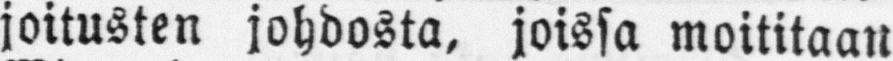joitusten johdosta, joissa moititaan
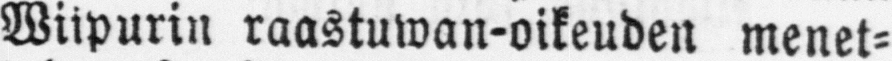Wiipurin raastuwan-oikeuden menet-
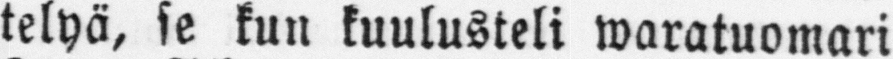telyä, se kun kuulusteli waratuomari
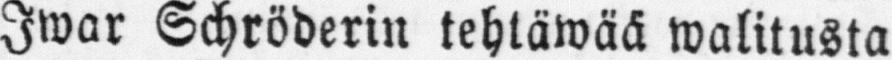Iwar Schröderin tehtäwää walitusta
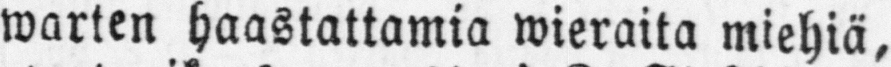warten haastattamia wieraita miehiä,
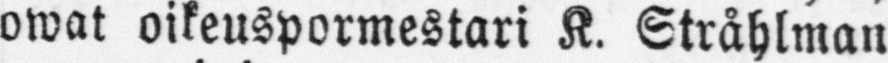owat oikeuspormestari K. Stråhlman
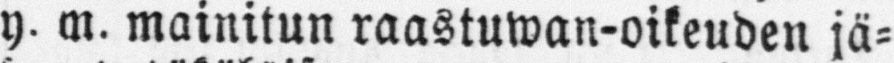y. m. mainitun raastuwan-oikeuden jä-
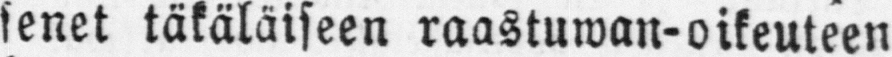senet täkäläiseen raastuwan-oikeuteen
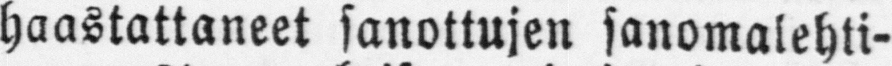haastattaneet sanottujen sanomalehti-
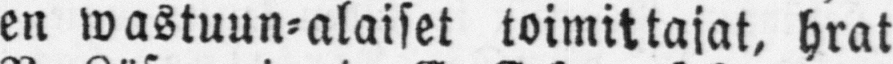en wastuun-alaiset toimittajat, hrat
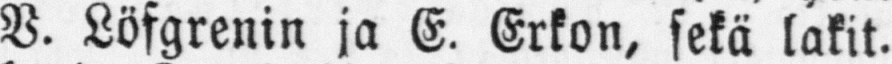V. Löfgrenin ja E. Erkon, sekä lakit,
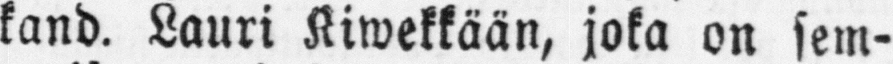kand. Lauri Kiwekkään, joka on sem-
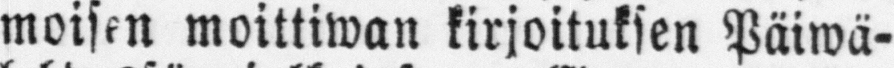moisen moittiwan kirjoituksen Päiwä-
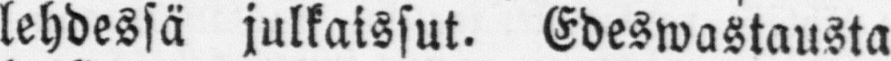lehdessä julkaissut. Edeswastausta
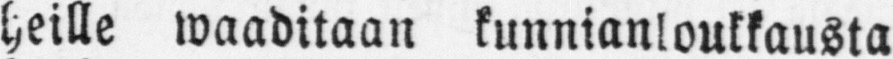heille waaditaan kunnianloukkausta
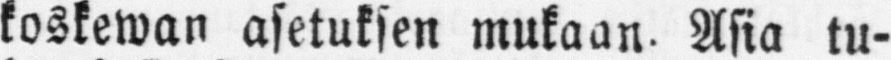koskewan asetuksen mukaan Asia tu-
